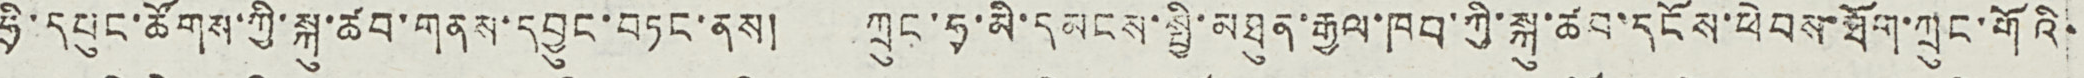ཧྲི་དཔུང་ཚོགས་ཀྱི་སྐུ་ཚབ་གནས་དབྱུང་བཏང་ནས། ཀྲུང་ཧྭ་མི་དམངས་སྤྱི་མཐུན་རྒྱལ་ཁབ་ཀྱི་སྐུ་ཚབ་དངོས་ཕེབས་ཐོག་ཀྲུང་གོའི་
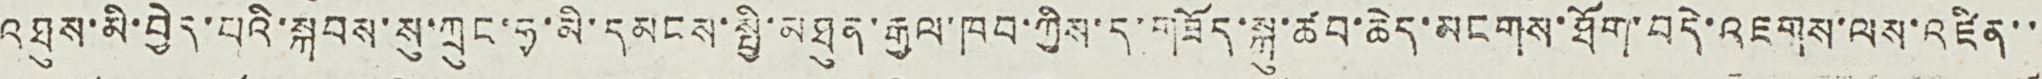འཐུས་མི་བྱེད་པའི་སྐབས་སུ་ཀྲུང་ཧྭ་མི་དམངས་སྤྱི་མཐུན་རྒྱལ་ཁབ་ཀྱིས་ད་གཟོད་སྐུ་ཚབ་ཆད་མངགས་ཐོག་བདེ་འཇགས་ལས་འཛིན་་
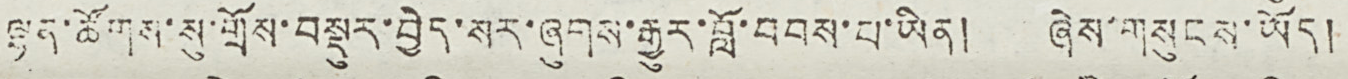ལྷན་ཚོགས་སུ་གྲོས་བསྡུར་བྱེད་སར་ཞུགས་རྒྱུར་བློ་བབས་པ་ཡིན། ཞེས་གསུངས་ཡོད།
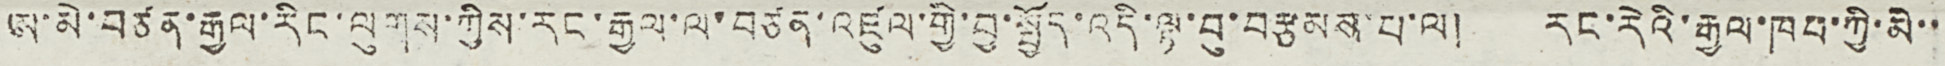ཨ་མེ་བཙན་རྒྱལ་རིང་ལུགས་ཀྱིས་རང་རྒྱལ་ལ་བཙན་འཛུལ་གྱི་བྱ་སྤྱོད་འདི་ལྟ་བུ་བརྩམས་པ་ལ། རང་རེའི་རྒྱལ་ཁབ་ཀྱི་མི་་
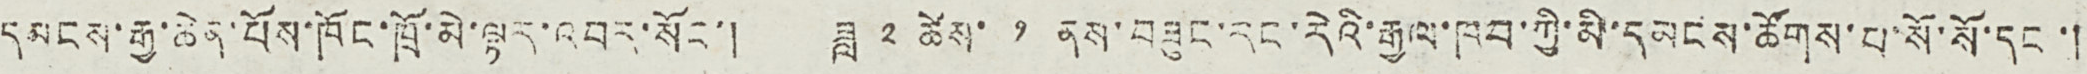དམངས་རྒྱ་ཆེན་པོས་ཁོང་ཁྲོ་མེ་ལྟར་འབར་སོང་། ཟླ ༢ ཚེས་ ༡ ནས་བཟུང་རང་རེའི་རྒྱལ་ཁབ་ཀྱི་མི་དམངས་ཚོགས་པ་སོ་སོ་དང་།
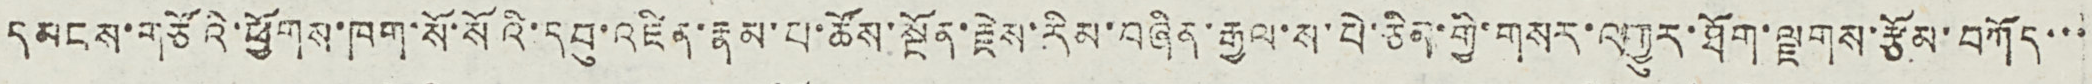དམངས་གཙོའི་ཕྱོགས་ཁག་སོ་སོའི་དབུ་འཛིན་རྣམ་པ་ཚོས་སྔོན་རྗེས་རིམ་བཞིན་རྒྱལ་ས་པེ་ཅིན་གྱི་གསར་འགྱུར་ཐོག་ལྗགས་རྩོམ་བཀོད་་་
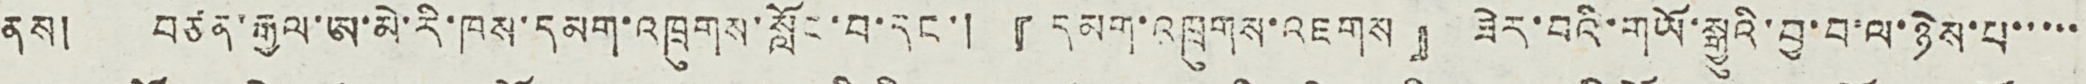ནས། བཙན་རྒྱལ་ཨ་མེ་རི་ཁས་དམག་འཁྲུགས་སློང་བ་དང་། 『དམག་འཁྲུགས་འཇགས』ཟེར་བའི་གཡོ་སྒྱུའི་བྱ་བ་ལ་ཉེས་པ་་་་་
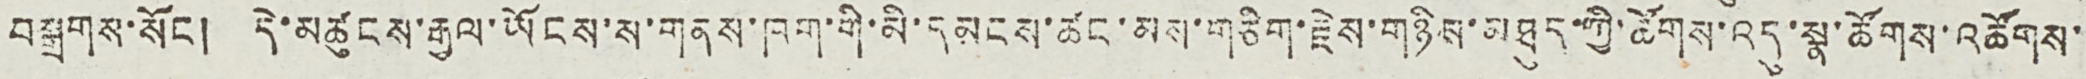བསྒྲགས་སོང ། དེ་མཚུངས་རྒྱལ་ཡོངས་ས་གནས་ཁག་གི་མི་དམངས་ཚང་མས་གཅིག་རྗེས་གཉིས་མཐུད་ཀྱི་ཚོགས་འདུ་སྣ་ཚོགས་འཚོགས་
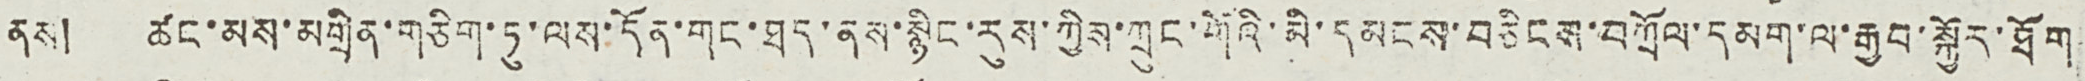ནས། ཚང་མས་མགྲིན་གཅིག་ཏུ་ལས་དོན་གང་ཐད་ནས་སྙིང་རུས་ཀྱིས་ཀྲུང་གོའི་མི་དམངས་བཅིངས་བཀྲོལ་དམག་ལ་རྒྱབ་སྐྱོར་ཐོག
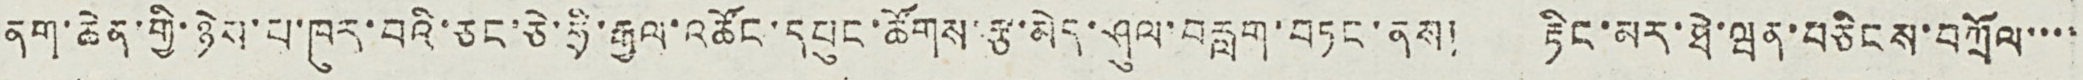ནག་ཆེན་གྱི་ཉེས་པ་ཁུར་བའི་ཅང་ཅེ་ཧྲི་རྒྱལ་འཚོང་དཔུང་ཚོགས་རྩ་མེད་ཤུལ་བརླག་བཏང་ནས། རྟིང་མར་ཐེ་ཝན་བཅིངས་བཀྲོལ་་་་
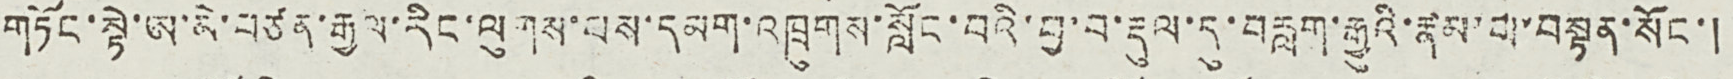གཏོང་སྟེ་ཨ་མེ་བཙན་རྒྱལ་རིང་ལུགས་པས་དམག་འཁྲུགས་སློང་བའི་བྱ་བ་རྡུལ་དུ་བརླག་རྒྱུའི་རྣམ་པ་བསྟན་སོང་།
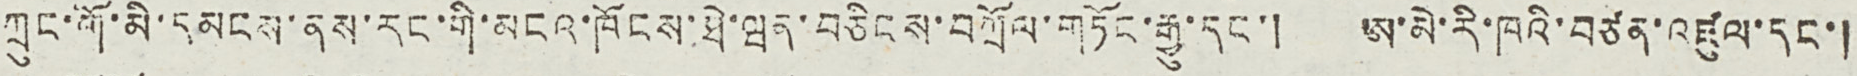ཀྲུང་གོ་མི་དམངས་ནས་རང་གི་མངའ་ཁོངས་ཐེ་ཝན་བཅིངས་བཀྲོལ་གཏོང་རྒྱུ་དང་། ཨ་མེ་རི་ཁའི་བཙན་འཛུལ་དང་།
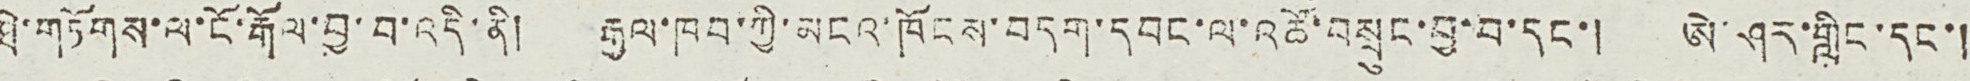ཐེ་གཏོགས་ལ་ངོ་རྒོལ་བྱ་བ་འདི་ནི། རྒྱལ་ཁབ་ཀྱི་མངའ་ཁོངས་བདག་དབང་ལ་འཚོ་བསྲུང་བྱ་བ་དང་། ཨེ་ཤར་གླིང་དང་།
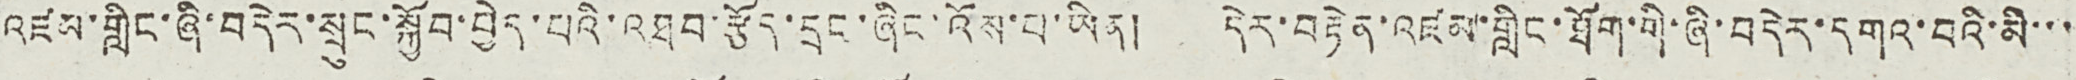འཛམ་གླིང་ཞི་བདེར་སྲུང་སྐྱོབ་བྱེད་པའི་འཐབ་རྩོད་དྲང་ཞིང་འོས་པ་ཡིན། དེར་བརྟེན་འཛམ་གླིང་ཐོག་གི་ཞི་བདེར་དགའ་བའི་མི་་་
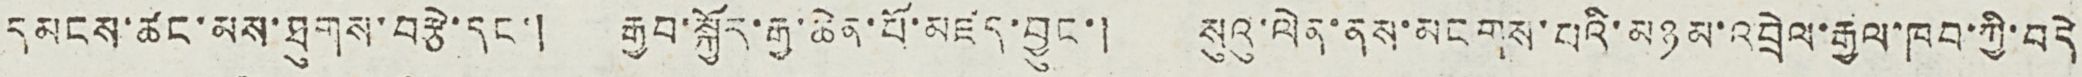དམངས་ཚང་མས་ཐུགས་བརྩེ་དང་། རྒྱབ་སྐྱོར་རྒྱ་ཆེན་པོ་མཛད་བྱུང་། སུའུ་ལེན་ནས་མངགས་པའི་མཉམ་འབྲེལ་རྒྱལ་ཁབ་ཀྱི་བདེ
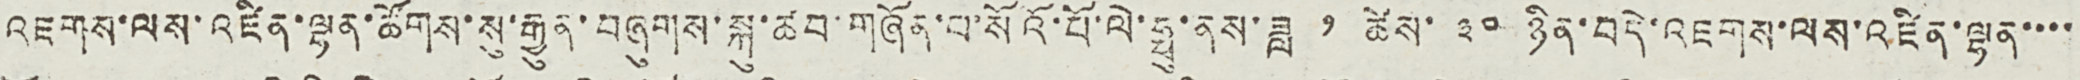འཇགས་ལས་འཛིན་ལྷན་ཚོགས་སུ་རྒྱུན་བཞུགས་སྐུ་ཚབ་གཞོན་པ་སོའོ་པོ་ལེ་ཧྥུ་ནས་ཟླ ༡ ཚེས་ ༣༠ ཉིན་བདེ་འཇགས་ལས་འཛིན་ལྷན་་་་
